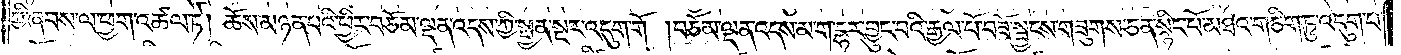ཀྱི་ཞབས་ལ་ཕྱག་འཚལ་ཏེ། ཆོས་མཉན་པའི་ཕྱིར་བཅོམ་ལྡན་འདས་ཀྱི་སྤྱན་སྔར་འདུག་གོ །བཅོམ་ལྡན་འདས་མ་ག་དྷར་བྱུང་བའི་རྒྱལ་པོ་བཟོ་སྦྱངས་གཟུགས་ཅན་སྙིང་པོ་མཐའ་གཅིག་ཏུ་འདུག་པ་
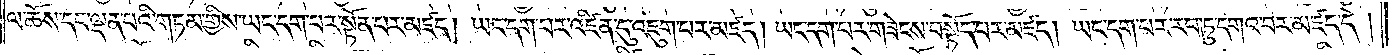ལ་ཆོས་དང་ལྡན་པའི་གཏམ་གྱིས་ཡང་དག་པར་སྟོན་པར་མཛད། ཡང་དག་པར་འཛིན་དུ་འཇུག་པར་མཛད། ཡང་དག་པར་གཟེངས་བསྟོད་པར་མཛད། ཡང་དག་པར་རབ་ཏུ་དགའ་བར་མཛད་དེ།
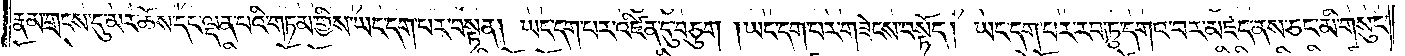རྣམ་གྲངས་དུ་མར་ཆོས་དང་ལྡན་པའི་གཏམ་གྱིས་ཡང་དག་པར་བསྟན། ཡང་དག་པར་འཛིན་དུ་བཅུག །ཡང་དག་པར་གཟེངས་བསྟོད། ཡང་དག་པར་རབ་ཏུ་དགའ་བར་མཛད་ནས་ཅང་མི་གསུང་
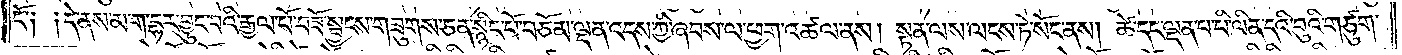ངོ༑ ༑དེ་ནས་མ་ག་དྷར་བྱུང་བའི་རྒྱལ་པོ་བཟོ་སྦྱངས་གཟུགས་ཅན་སྙིང་པོ་བཅོམ་ལྡན་འདས་ཀྱི་ཞབས་ལ་ཕྱག་འཚལ་ནས། སྟན་ལས་ལངས་ཏེ་སོང་ནས། ཚེ་དང་ལྡན་པ་པི་ལིན་དའི་བུའི་གཙུག་
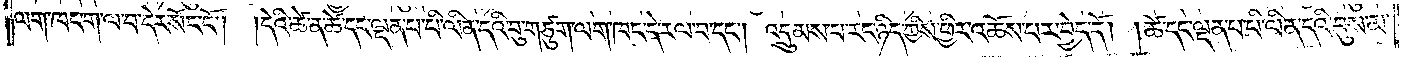ལག་ཁང་ག་ལ་བ་དེར་སོང་ངོ༌།<gap>།དེའི་ཚེ་ན་ཚེ་དང་ལྡན་པ་པི་ལིན་དའི་བུ་གཙུག་ལག་ཁང་དེ་རལ་བ་དང༌། འདྲུམས་པ་རང་ཉིད་ཀྱིས་ཕྱིར་འཆོས་པར་བྱེད་དོ། །ཚེ་དང་ལྡན་པ་པི་ལིན་དའི་བུས་མ་
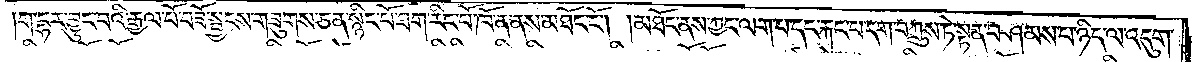ག་དྷར་བྱུང་བའི་རྒྱལ་པོ་བཟོ་སྦྱངས་གཟུགས་ཅན་སྙིང་པོ་ཐག་རིང་པོ་ཁོ་ན་ནས་མཐོང་ངོ༌། །མཐོང་ནས་ཀྱང་ལག་པ་དང་རྐང་པ་དག་བཀྲུས་ཏེ་སྟན་བཤམས་པ་ཉིད་ལ་འདུག་
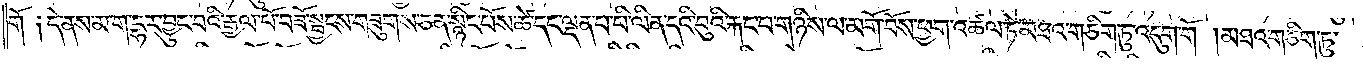གོ༑ བྷ་དེ་ནས་མ་ག་དྷར་བྱུང་བའི་རྒྱལ་པོ་བཟོ་སྦྱངས་གཟུགས་ཅན་སྙིང་པོས་ཚེ་དང་ལྡན་པ་པི་ལིན་དའི་བུའི་རྐང་པ་གཉིས་ལ་མགོ་བོས་ཕྱག་འཚལ་ཏེ་མཐའ་གཅིག་ཏུ་འདུག་གོ །མཐའ་གཅིག་ཏུ་
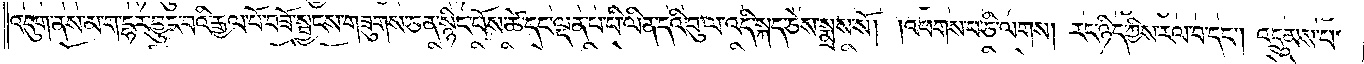འདུག་ནས་མ་ག་དྷར་བྱུང་བའི་རྒྱལ་པོ་བཟོ་སྦྱངས་གཟུགས་ཅན་སྙིང་པོས་ཚེ་དང་ལྡན་པ་པི་ལིན་དའི་བུ་ལ་འདི་སྐད་ཅེས་སྨྲས་སོ། །འཕགས་པ་ཅི་ལགས། རང་ཉིད་ཀྱིས་རལ་བ་དང༌། འདྲུམས་པ་
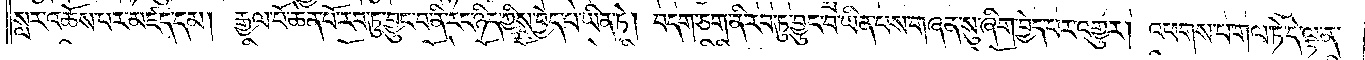སླར་འཆོས་པར་མཛད་དམ། རྒྱལ་པོ་ཆེན་པོ་རབ་ཏུ་བྱུང་བ་ནི་རང་ཉིད་ཀྱིས་བྱེད་པ་ཡིན་ཏེ། བདག་ཅག་ནི་རབ་ཏུ་བྱུང་བ་ཡིན་པས་གཞན་སུ་ཞིག་བྱེད་པར་འགྱུར། འཕགས་པ་གལ་ཏེ་དེ་ལྟ་ན་
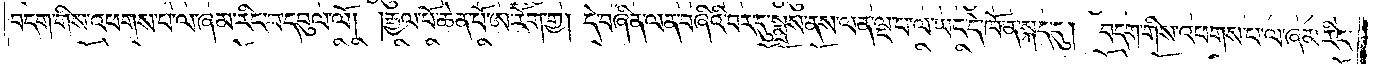བདག་གིས་འཕགས་པ་ལ་ཞམ་རིང་བ་དབུལ་ལོ། །རྒྱལ་པོ་ཆེན་པོ་ཨ་རོག་གྱ། དེ་བཞིན་ལན་བཞིའི་བར་དུ་སྨྲས་ནས་ལན་ལྔ་པ་ལ་ཡང་དེ་ཁོ་ན་སྐད་དུ། བདག་གིས་འཕགས་པ་ལ་ཞམ་རིང་
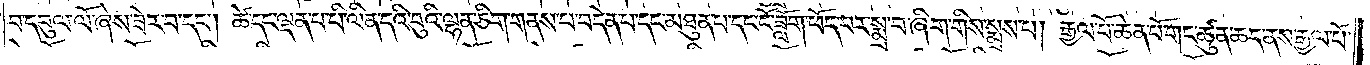བ་དབུལ་ལོ་ཞེས་ཟེར་བ་དང༌། ཚེ་དང་ལྡན་པ་པི་ལིན་དའི་བུའི་ལྷན་ཅིག་གནས་པ་བདེན་པ་དང་མཐུན་པ་དང་ངོ་ཟློག་ཕོད་པར་སྨྲ་བ་ཞིག་གིས་སྨྲས་པ། རྒྱལ་པོ་ཆེན་པོ་གང་ཚུན་ཆད་ནས་རྒྱལ་པོ་
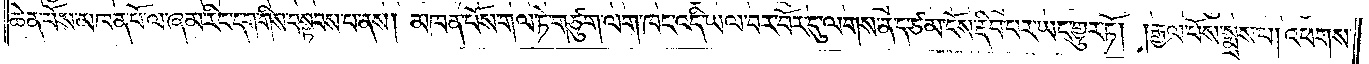ཆེན་པོས་མཁན་པོ་ལ་ཞམ་རིང་དག་གིས་བསྟབས་པ་ནས། མཁན་པོས་གལ་ཏེ་གཙུག་ལག་ཁང་འདི་ཡལ་བར་བོར་དུ་ལགས་ན་ད་ཙམ་ངོས་རྡིབ་པར་ཡང་གྱུར་ཏོ། །རྒྱལ་པོས་སྨྲས་པ། འཕགས་
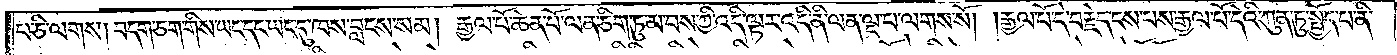པ་ཅི་ལགས། བདག་ཅག་གིས་ཡང་དང་ཡང་དུ་ཁས་བླངས་སམ། རྒྱལ་པོ་ཆེན་པོ་ལན་ཅིག་ཏུ་མ་བས་ཀྱི་འདི་ལྟར་འདི་ནི་ལན་ལྔ་པ་ལགས་སོ། །རྒྱལ་པོ་དེ་བརྗེད་ངས་པས་རྒྱལ་པོ་དེའི་ཀུན་ཏུ་སྤྱོད་པ་ནི་
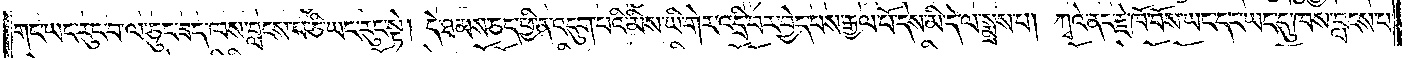གང་ཡང་རུང་བ་ལ་ཅུང་ཟད་ཁས་བླངས་པ་ཅི་ཡང་རུང་སྟེ། དེ་ཐམས་ཅད་ཕྱི་ན་འདུག་པའི་མིས་ཡི་གེར་འདྲི་བར་བྱེད་པས་རྒྱལ་པོ་དེས་མི་དེ་ལ་སྨྲས་པ། ཀྭའེ་ནང་རྗེ་ཁོ་བོས་ཡང་དང་ཡང་དུ་ཁས་བླངས་པ་
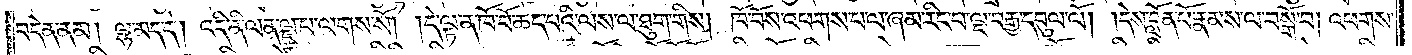བདེན་ནམ། ལྷ་མད་དེ། འདི་ནི་ལན་ལྔ་པ་ལགས་སོ། །དེ་ལྟ་ན་ཁོ་བོ་ཆད་པའི་ལས་ལ་ཐུག་གིས། ཁོ་བོས་འཕགས་པ་ལ་ཞམ་རིང་པ་ལྔ་བརྒྱ་དབུལ་ལོ། །དེས་བློན་པོ་རྣམས་ལ་བསྒོ་བ། འཕགས་
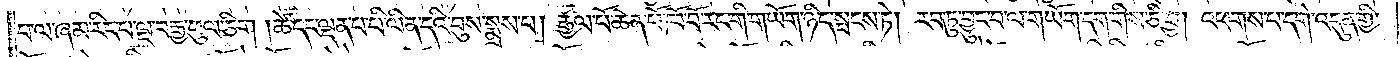པ་ལ་ཞམ་རིང་པ་ལྔ་བརྒྱ་ཕུལ་ཅིག །ཚེ་དང་ལྡན་པ་པི་ལིན་དའི་བུས་སྨྲས་པ། རྒྱལ་པོ་ཆེན་པོ་ཁོ་བོ་རང་གི་གཡོག་ཉིད་སྤངས་ཏེ། རབ་ཏུ་བྱུང་བ་ལ་གཡོག་དག་གིས་ཅི་བྱ། འཕགས་པ་དགེ་འདུན་གྱི་
